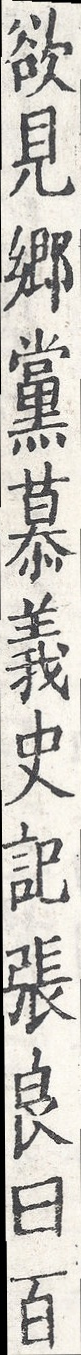欲見鄉黨慕義史記張良曰百
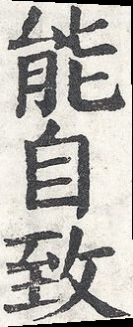能自致
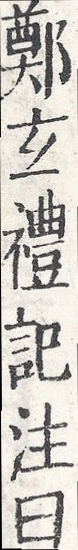鄭玄禮記注曰
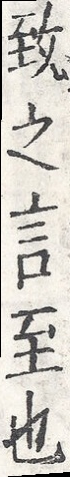致之言至也
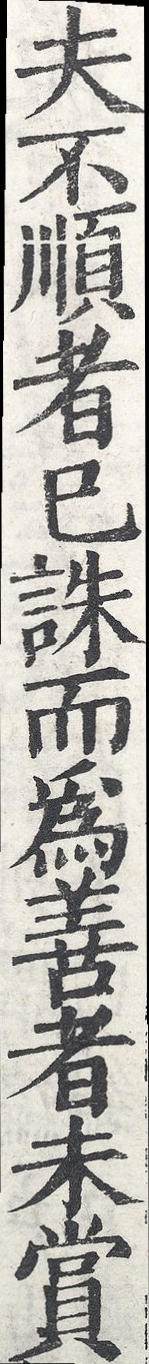夫不順者已誅而為善者未賞
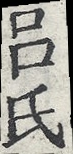呂氏
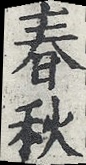春秋
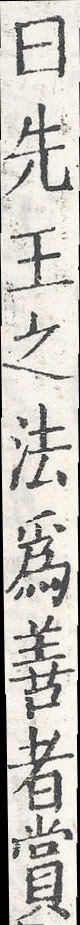曰先王之法為善者賞
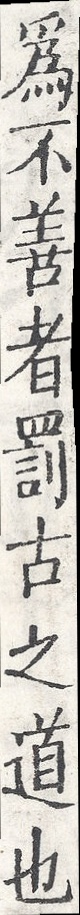為不善者罰古之道也
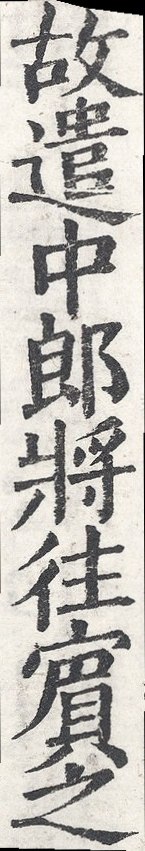故遣中郎將往賔之
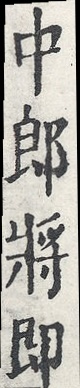中郎將即
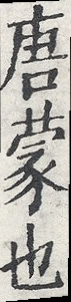唐蒙也
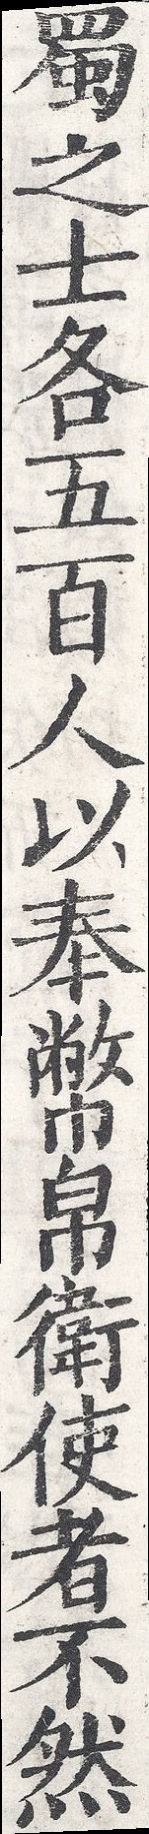蜀之士各五百人以奉幣帛衛使者不然
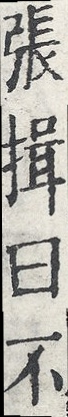張揖曰不
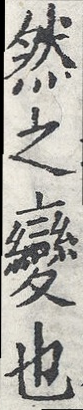然之變也
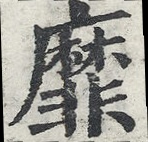靡
